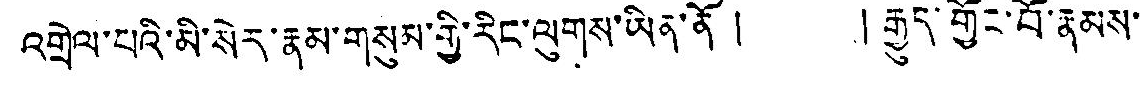འགྲེལ་པའི་མི་སེར་རྣམ་གསུམ་གྱི་རིང་ལུགས་ཡིན་ནོ ། །རྒྱུད་གྱོང་བོ་རྣམས་
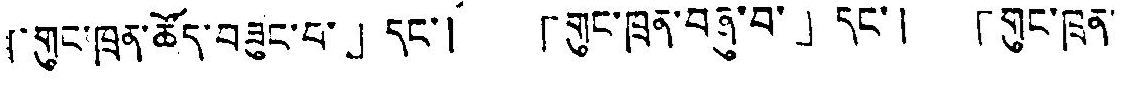「གུང་ཁྲན་ཚོད་བཟུང་པ་」དང་། 「གུང་ཁྲན་བཞུ་བ་」དང་། 「གུང་ཁྲན་
